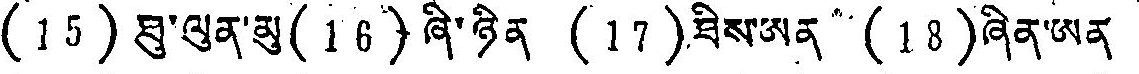(15) བུ་ལུན་མུ (16) ཞི་ཉིན (17)ཟིས་ཨན་ (18)ཞིན་ཨན
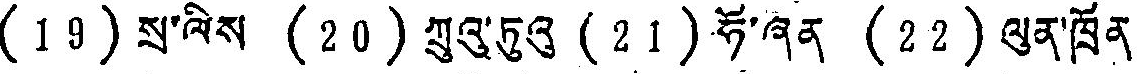(19) སྲ་ལིས (20) ཀྲུའུ་ཏུའུ ( 21) ཧོ་ཞན (22) ལུན་ཁྲོན
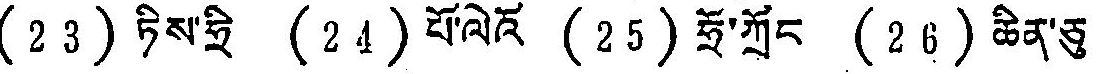(23) ཏིས་ཧྲི (24) པོ་ལེའོ (25) ཧྲོ་ཀྲོང (26) ཆིན་ཅུ
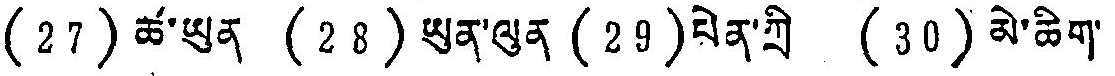(27) ཚ་ཡུན (28) ཡུན་ལུན (29) པེན་ཀྲི (30) མེ་ཆིག་
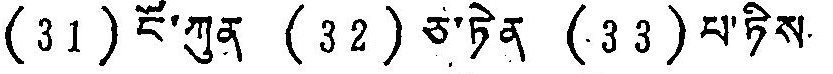(31) ངོ་ཀུན (32) ཅ་ཏེན (33) པ་ཏིས
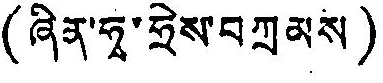(ཞིན་ཧྭ་ཧྲེས་བཀྲམས)
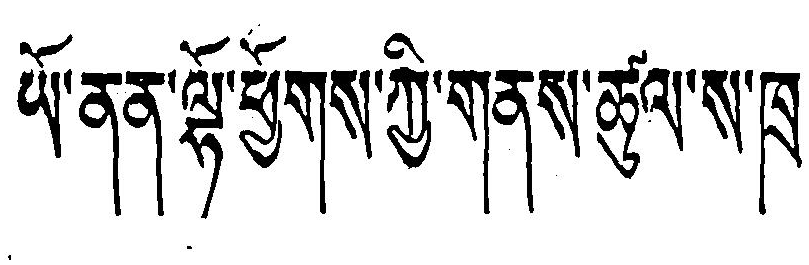ཡོ་ནན་ལྷོ་ཕྱོགས་ཀྱི་གནས་ཚུལ་ས་ཁྲ
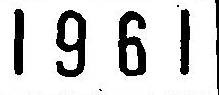1961
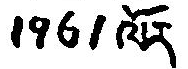1961ལོར
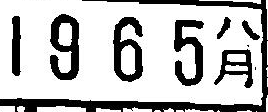1965八月
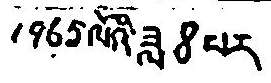1965ལོའི་ཟླ8པར
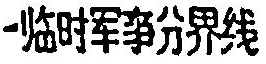-临时军事分界线
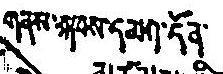གནས་སྐབས་དམག་དོན་
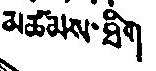མཚམས་ཐིག
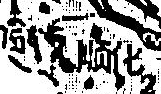ཧྲིན་ཧྭ 顺化
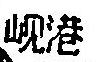岘港
